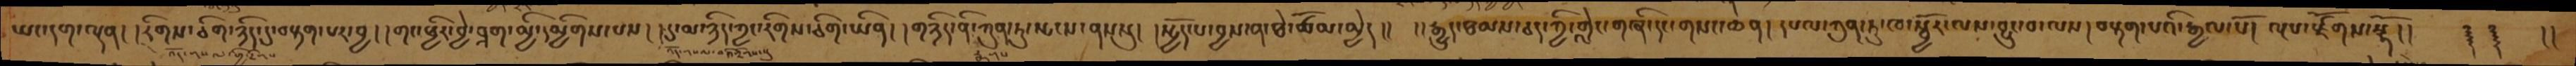ཡང་དག་ལྡན། །རིགས་ཅིག་ཉིད་དུ་བརྟག་པར་བྱ། །གང་ཕྱིར་བྱེ་བྲག་མྱི་དམྱིགས་པས། །དུ་མ་ཉིད་ཀྱང་རིགས་ཅིག་ཡིན། །གཉིད་ནི་ཀུན་ཏུ་སྤངས་ནསསུ། །སྤྱོད་པ་བྱས་ན་ཐེ་ཚོམ་མྱེད།།  །།རྒྱུད་ཐམས་ཅད་ཀྱི་གླེང་གཞི་དང་གསང་ཆེན། །དཔལ་ཀུན་ཏུ་ཁ་སྦྱོར་ལས་བྱུང་བ་ལས། །བརྟག་པའི་རྒྱལ་པོ། ལྔཔ་རྫོགས་སྷོ།།  ༈ ༈ །།
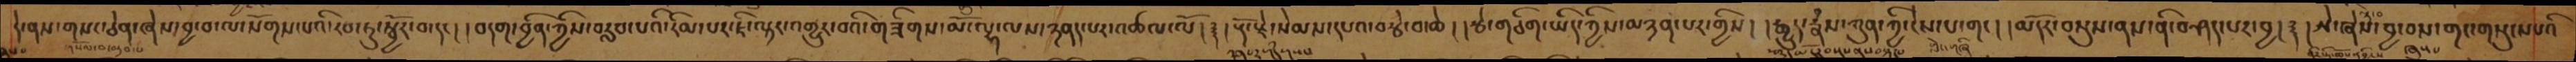དེ་ནས་གསང་ཅེན་ཞེས་བྱ་བ་ལ་སོགས་པའི་རབ་ཏུ་སྦྱོར་བ་དང། །བདག་བྱིན་ཀྱིས་བརླབ་པའི་རིམ་པར་ཇི་ལྟར་འགྱུར་བའི་གཟིགས་མོ་ལྷ་ལས་ཉནད་པར་འཚལ་ལོ། ༈ །རྡོ་རྗེ་སེམས་དཔའ་བརྩེ་བ་ཆེ། །རྩེ་གཅིག་ཡིད་ཀྱིས་མཉན་པར་གྱིས། །རྒྱུད་རྣཾས་ཀུན་ཀྱི་ངེས་པ་གང། །མདོར་བསྡུས་ནས་ནི་བཤད་པར་བྱ། ༈ །ཨེ་ཞེས་བྱ་བས་གང་གསུངས་པའི
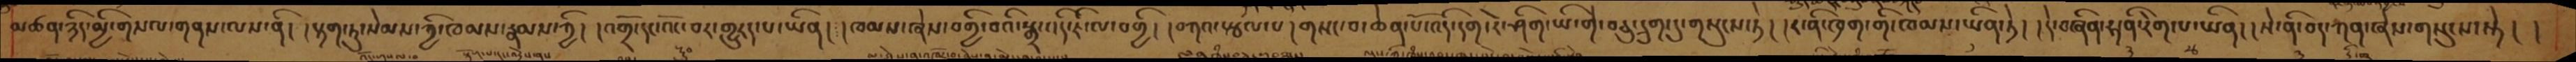མཚན་ཉིད་མྱི་གསལ་ལས་ནི། །རྟག་ཏུ་སེམས་ཀྱི་ཁམས་རྣམས་ཀྱི། །འགྲོ་དང་འོང་བར་གྱུརད་པ་ཡིན། །ཁམས་ཞེས་བགྱི་བའི་སྒྲ་འདི་ཇི་ལ་བགྱི། །བཀའ་སྩལ་པ། གསང་བ་ཆེན་པོ་འདི་དག་རེ་ཤིག་ཡི་གེ་བཅུ་དྲུག་དུ་གསུངས་སྟེ། །ར་ནི་ཁྲག་གི་ཁམས་ཡིན་ཏེ། །དེ་བཞིན་ཧ་ནི་རིག་པ་ཡིན། །སེ་ནི་བད་ཀན་ཞེས་གསུངས་སྟེ། །
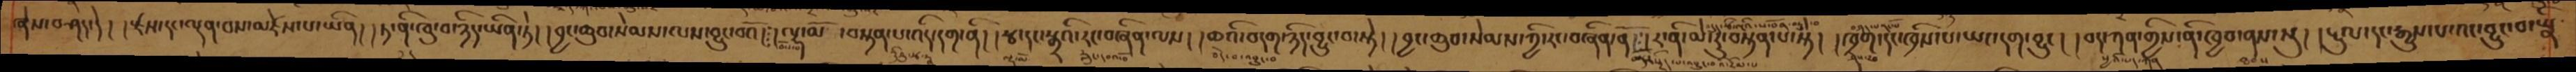ཞེས་བཤད་དེ། །རྫས་དང་ལྡན་བས་མཛེས་པ་ཡིན། །ཏ་ནི་ཁུ་བ་ཉིད་ཡིན་ཏེ། །བྱང་ཆུབ་སེམས་ལས་བྱུང་བའོ། །ལྷ་མོ་བསྟན་པ་འདི་དག་ནི། །རྩ་དང་སྒྲའི་རང་བཞིན་ལས། །ཆའི་བདག་ཉིད་བྱུང་བ་སྟེ། །བྱང་ཆུབ་སེམས་ཀྱི་རང་བཞིན་ནོ། །ར་ནི་མེ་རུ་བསྟན་པ་སྟེ། །ཁྲག་དང་ཁྲིས་པ་ཡང་དག་བྱུང། །བད་ཀན་གྱིས་ནི་ཁྱབ་ནས་སུ། །རྔུལ་དང་རྒྱུས་པ་བྱུང་བ་ཡིན
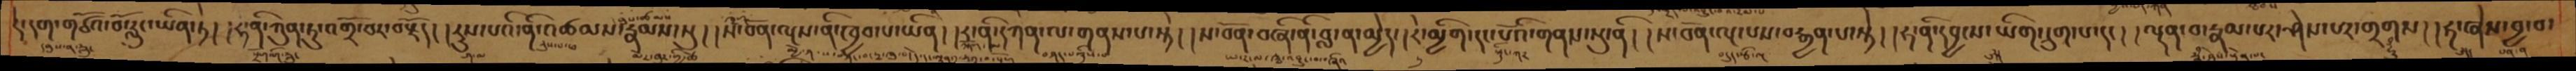དེ་དག་གཙོའ་བོ་རླུང་ཡིན་ཏེ། །ཧ་ནི་ཀུན་ཏུ་འགྲོ་བར་བརྗོད། །རུས་པའི་ནི་འཚམས་རྣམས་སུ། །ས་བོན་ལྔས་ནི་ཁྱབ་པ་ཡིན། །ར་ནི་དཀན་ལ་གནས་པ་སྟེ། །ས་བོན་བཞི་ནི་བླ་ན་མྱེད་།རེ་མྱིག་དང་པོའི་གནས་སུ་ནི། །ས་བོན་ལྔ་པས་བརྒྱན་པ་སྟེ། །ཧ་ནི་དབྱིངས་ཡིག་དྲུག་པ་དང། །ལྡན་བ་རྣམ་པར་ཤེས་པར་གྲགས། །ཧ་ཞེས་བྱ་བ་
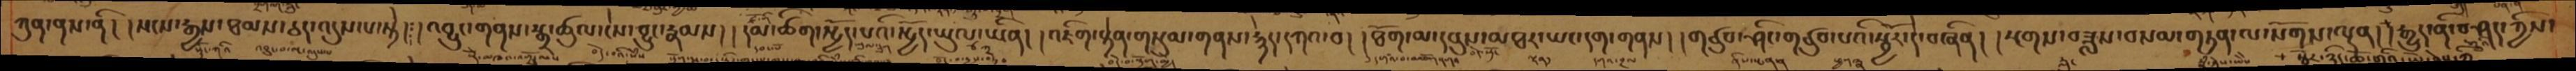ཀུན་ནས་ནི། །སངས་རྒྱས་ཐམས་ཅད་འདུས་པ་སྟེ། །འབྱུང་གནས་སྒྲ་ཚུལ་ངེས་བྱུང་རྣམས། །དམ་ཚིག་སྤྱོད་པའི་སྤྱོད་ཡུལ་ཡིན། །འཇིག་རྟེན་གསུམ་གནས་རྙེད་དཀའ་བ། །ཐོག་མ་དབུས་མཐར་ཡང་དག་གནས། །གཙུབ་ཤིང་གཙུབ་པའི་སྦྱོར་དེ་བཞིན། །སྔགས་བཟླས་བསམ་གཏན་ལ་སོགས་ལྡན། །རྒྱུད་ནི་བཤད་ཀྱིས་
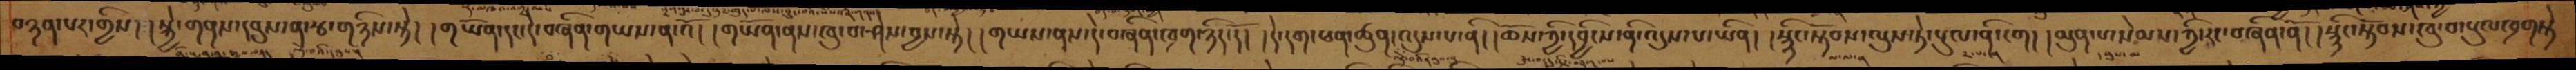བཉན་པར་གྱིས། །སྐྱེ་གནས་དབུས་ན་རྩ་གཉིས་སྟེ། །གཡོན་དང་དེ་བཞིན་གཡས་ན་འོ། །གཡོན་ནས་ཁུ་བ་ཤེས་བྱས་སྟེ། །གཡས་ནས་དེ་བཞིན་ཁྲག་ཉིད་དོ། །དེ་དག་ཕན་ཚུན་འདུས་པ་ནི། །ཆོས་ཀྱི་དབྱིངས་ནི་འདུས་པ་ཡིན། །སྙིང་སྟོབས་ལུས་ཏེ་པུལ་ནི་ངག། །མུན་པ་སེམས་ཀྱི་རང་བཞིན་ནོ། །སྙིང་སྟོབས་ཁུ་བ་སུལ་ཁྲགསྟེ
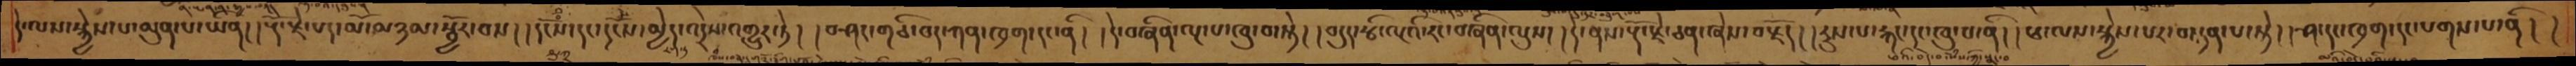དེ་ལས་སྐྱེས་པ་མུན་པ་ཡིན།།རྡོ་རྗེ་པད་མོ་མཉམ་སྦྱོར་བས།།དངོས་དང་དངོས་མྱེད་འདྲེས་འགྱུར་ཏེ། །བཤང་གཅི་བད་ཀན་ཁྲག་དང་ནི། །དེ་བཞིན་ལྔ་པ་ཁུ་བ་སྟེ། །བདུད་རྩི་ལྔའི་རང་བཞིན་ལུས། །དེ་ནས་རྡོ་རྗེ་ཅན་ཞེས་བརྗོད།།རུས་པ་རྐང་དང་ཁུ་བ་ནི། །ཕ་ལས་སྐྱེས་པར་བསྟན་པ་སྟེ། །ཤ་དང་ཁྲག་དང་པགས་པ་ནི། །
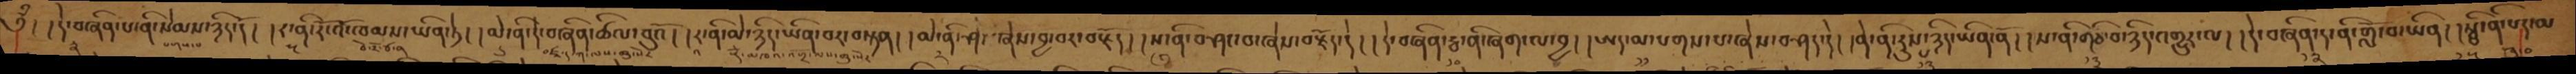༄ྃ། །དེ་བཞིན་པ་ནི་སེམས་ཉིད་དོ། །ར་ནི་རོ་འང་ཁམས་ཡིན་ཏེ། །མེ་ནི་དེ་བཞིན་ཚིལ་བུའོ། །ར་ནི་མེ་ཉིད་ཡིན་བར་བསྟན། །མེ་ནི་ཤ་ཞེས་བྱ་བར་བརྗོད། །ས་ནི་བཤང་བ་ཞེས་བརྗོད་དེ། །དེ་བཞིན་རྦ་ནི་ཞག་ལ་བྱ། །ཨད་མ་པགས་པ་ཞེས་བཤད་དེ། །ནེ་ནི་རུས་པ་ཉིད་ཡིན་ནོ། །ས་ནི་གཅི་བ་ཉིད་འགྱུར་ལ། །དེ་བཞིན་ད་ནི་གློ་བ་ཡིན། །སྠི་ནི་པད་མ
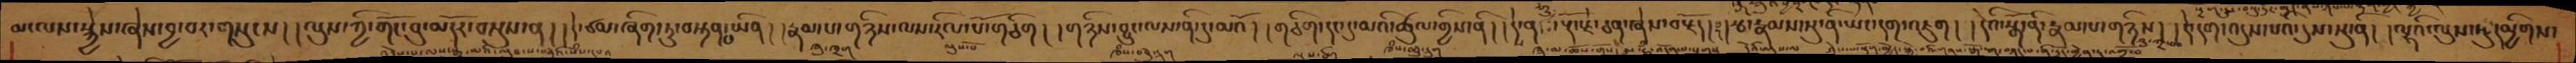མ་ལས་སྐྱེས་ཞེས་བྱ་བར་གསུངས། །ལུས་ཀྱི་གོང་བུ་མདོར་བསྡུས་ན། །དེ་ཙམ་ཞིག་ཏུ་བསྟན་པ་ཡིན། །རྣམ་པ་གཉིས་ལས་རིལ་པོ་གཅིག། །གཉིས་བྱུང་ལས་ནི་དུ་མའོ། །གཅིག་དང་དུ་མའི་ཚུལ་གྱིས་ནི། །དེ་ནས་རྡོ་རྗེ་ཅན་ཞེས་བརྗོད། །རྩ་རྣམས་སུ་ནི་ཡང་དག་འཇུག། །དེའི་སྒོ་ནི་རྣམ་ལ་གཉིས། །དེ་དག་འདུས་པའི་དུས་སུ་ནི། །ལྷའི་ལུས་སུ་དམྱིགས་
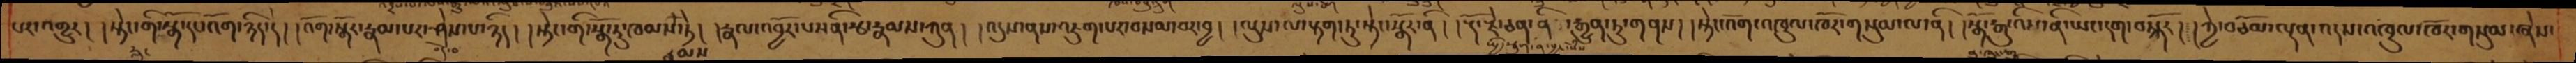པར་གྱུར། །སྟེང་གི་སྒོ་དང་འོག་ཉིད་དེ། །འོག་སྒོར་རྣམ་པར་ཤེས་པ་ཉིད། །སྟེང་གི་སྒོ་རུ་ཁམས་རྣམས་ཏེ། །རྣལ་འབྱོར་པས་ནི་རྩ་རྣམས་ཀུན། །འདུས་ནས་འཇུག་པར་བསམ་པར་བྱ། །ལུས་ལ་རྟག་ཏུ་སྟེང་སྒོར་ནི། །རྡོ་རྗེ་ཅན་ནི་རྒྱུན་ཏུ་གནས། །སྟེང་འོག་འཁྲུལ་འཁོར་གསུམ་ལ་ནི། །སྒོ་རྒུ་འིས་ནི་ཡང་དག་བསྐོར། །ཀྱེ་བཅོམ་ལྡན་འདས་འཁྲུལ་ཁོར་གསུམ་ཞེས
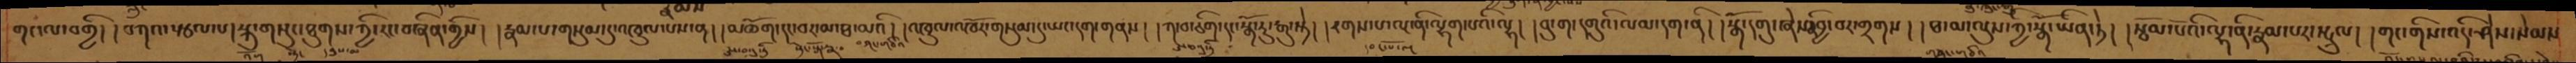གང་ལ་བགྱི། །བཀའ་སྩལ་པ། སྐུ་གསུང་ཐུགས་ཀྱི་རང་བཞིན་གྱིས། །རྣམ་པ་གསུམ་དུ་འཁྲུལ་པས་ན། །མཆོག་དང་བར་མ་ཐ་མའི། །འཁྲུལ་འཁོར་གསུམ་དུ་ཡང་དག་གནས། །ཀ་བ་ཅིག་དང་སྒོ་རུ་རྒུ་སྟེ། རགས་པ་ལྔ་ནི་ལྷགཔའི་ལྷ། །བུ་ག་དགུའི་ལམ་དག་ནི། །སྒོ་དགུ་ཞེས་ནི་བྱ་བར་གྲགས། །ཐ་མ་ལུས་ཀྱི་སྒོ་ཡིན་ཏེ། །སྦོམ་པོའི་ལྷ་ནི་རྣམ་པར་སྤྲུལ། །གང་གིས་འདི་ཤེས་སེམས
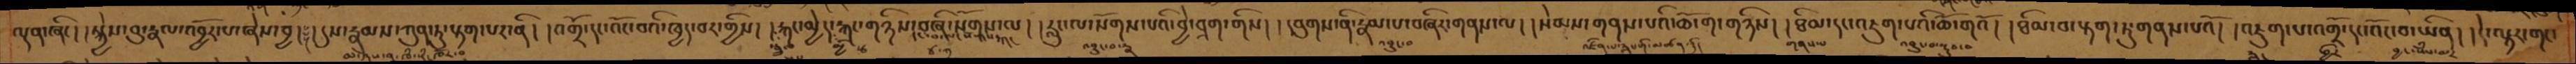ལྡན་ཞིང། །སྐྱེས་བུ་རྣལ་འབྱོར་པ་ཞེས་བྱ། །དུས་རྣམས་ཀུན་ཏུ་རྟག་པར་ནི། །འགྲོ་དང་འོང་བའི་ཁྱད་པར་གྱིས། །རྐང་མྱེད་རྐང་གཉིས་བཞི་སོགས་ལ། །རླུང་ལ་སོགས་པའི་བྱེ་བྲག་གིས། །དབུགས་ནི་རྣམ་པ་བཞིར་གནས་ལ། །སེམས་གནས་པའི་ཆོ་ག་གཉིས། །ཐིམ་དང་འཇུག་པའི་ཆོ་གའོ། །ཐིམ་བ་རྟག་ཏུ་གནས་པའོ། །འཇུག་པ་འགྲོ་དང་འོང་བ་ཡིན། །དེ་ལྟར་གང་
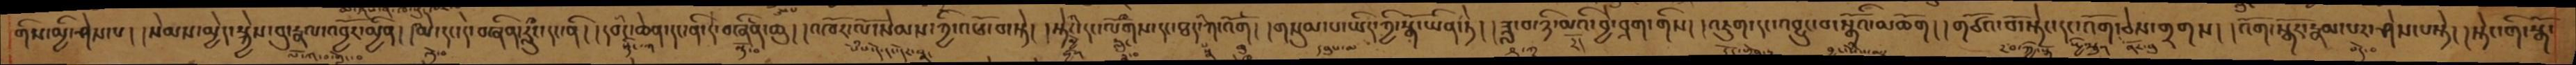གིས་མྱི་ཤེས་པ། །སེམས་མྱེད་སྐྱེས་བུ་རྣལ་འབྱོར་མྱིན། །མེ་དང་དེ་བཞིན་རླུང་དང་ནི། །དབང་ཆེན་དང་ནི་དེ་བཞིན་ཆུ། །འཁོར་ལོ་སེམས་ཀྱི་འཕོ་བ་སྟེ། །སྟེང་དང་ལོགས་དང་ཐད་ཀི་འོག། །གསུམ་པ་ཡིད་ཀྱི་སྒོ་ཡིན་ཏེ། །ཟླ་བ་ཉི་མའི་བྱེ་བྲག་གིས། །འཇུག་དང་འབྱུང་བ་སྒྲོའིམཆོག། །གཙོའ་བོ་སྟེང་དང་འོག་ཅེས་གྲགས། །འོག་སྒོར་རྣམ་པར་ཤེས་པ་སྟེ། །སྟེང་གི་སྒོ་
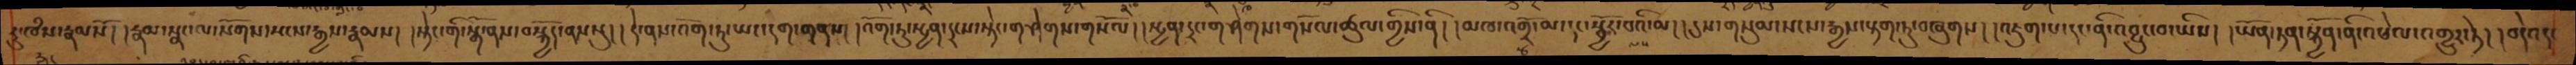རུ་ཁཾས་རྣམསོ། །རྣམ་སྣང་ལ་སོགས་སངས་རྒྱས་རྣམས། །སྟེང་གི་སྒོ་ནས་བསྐྱོད་ནས་སུ། །དེ་ནས་འོག་ཏུ་ཡང་དག་གནས། །འོག་ཏུ་སྤྱན་དྲངས་སྟེང་གཤེགས་གསོལ། །སྤྱན་དྲང་གཤེགས་གསོལ་ཚུལ་གྱིས་ནི། །མཁ་འགྲོ་མ་དང་སྦྱོར་བའི་མ། །དུས་གསུམ་སངས་རྒྱས་རྟག་ཏུ་བཞུགས། །འཇུག་པ་དང་ནི་འབྱུང་བ་ཡིས། །ཡོན་ཏན་སྐྱོན་ནི་འཕེལ་འགྱུར་ཏེ། །བེདའད
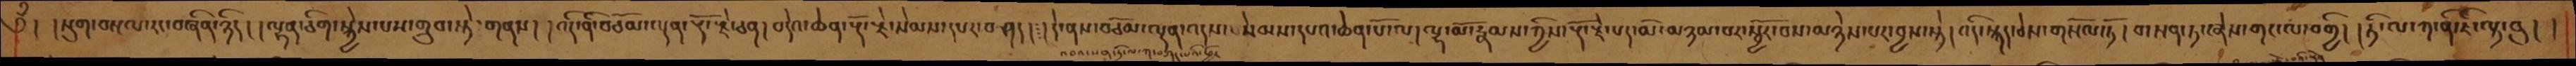༄ྃ། །སྡུག་བསྔལ་རང་བཞིན་ཉིད། །ལྷན་ཅིག་སྐྱེས་པས་གྲུབ་སྟེ་གནས། །འདི་ནི་བཅོམ་ལྡན་རྡོ་རྗེ་ཅན། །བདེའ་ཆེན་རྡོ་རྗེ་སེམས་དཔར་བཤད། །དེ་ནས་བཅོམ་ལྡན་འདས་སེམས་དཔའ་ཆེན་པོ་ལ།  ལྷ་མོ་རྣམས་ཀྱི་རྡོ་རྗེ་པད་མོ་མཉམ་བར་སྦྱོར་བས་མཉེས་པར་བྱས་སྟེ། འདི་སྐད་ཅེས་གསོལ་ཏོ། གསན་ཏ་ཞེས་གང་ལ་བགྱི། །ཏི་ལ་ཀ་ནི་ཇི་ལྟ་བུ། །
